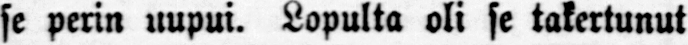se perin uupui. Lopulta oli se takertunut
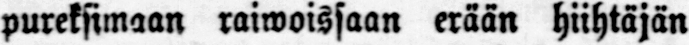pureksimaan raiwoissaan erään hiihtäjän
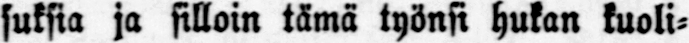suksia ja silloin tämä työnsi hukan kuoli-
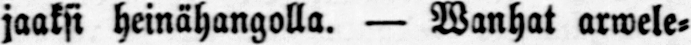jaaksi heinähangolla. — Wanhat arwele-
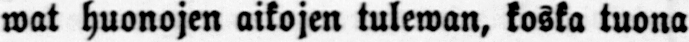wat huonojen aikojen tulewan, koska tuona
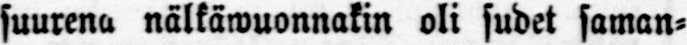suurena nälkäwuonnakin oli sudet saman-
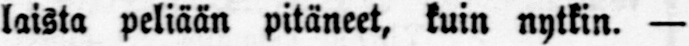laista peliään pitäneet, kuin nytkin. —
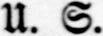U. S.
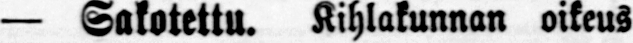— Sakotettu. Kihlakunnan oikeus
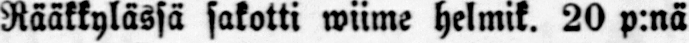Rääkkylässä sakotti wiime helmik. 20 p:nä
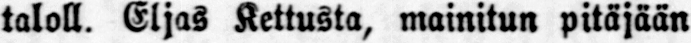taloll. Eljas Kettusta, mainitun pitäjään
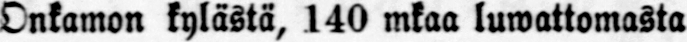Onkamon kylästä, 140 mkaa luwattomasta
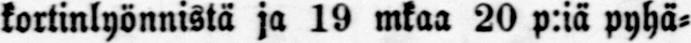kortinlyönnistä ja 19 mkaa 20 p:iä pyhä-
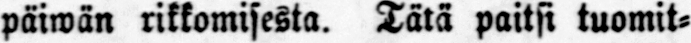päiwän rikkomisesta. Tätä paitsi tuomit-
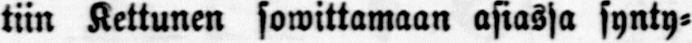tiin Kettunen sowittamaan asiassa synty-
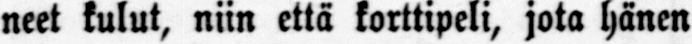neet kulut, niin että korttipeli, jota hänen
